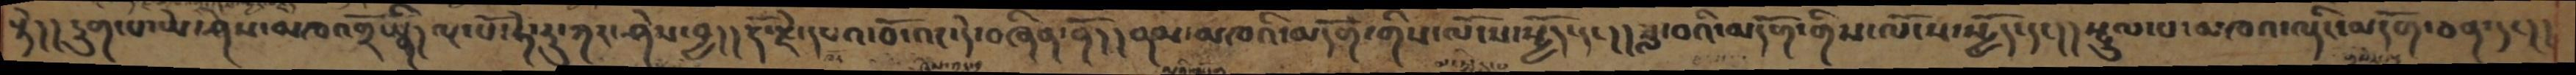སྟེ།།དྲུག་པ་ཡེ་ཤེས་མཁའགྲོ་ཡིན།ལྔ་པོ་ཧེ་རུ་ཀར་ཤེས་བྱ།།རྡོ་རྗེ་དཔའ་བོ་འང་དེ་བཞིན་ནོ།།ནམ་མཁའི་མདོག་གིས་ལོངས་སྤྱོད་དང།།ཟླ་བའི་མདོག་གིས་ལོངས་སྤྱོད་དང།།སྤྲུལ་པ་མཁའ་ལྡིང་མདོག་ཅན་དང།།
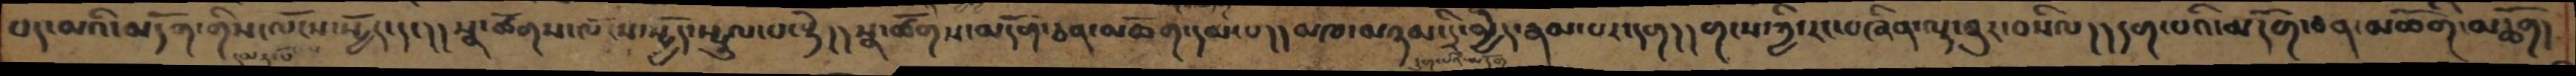པད་མའི་མདོག་གིས་ལོངས་སྤྱོད་དང།།སྣ་ཚོགས་ལོངས་སྤྱོད་སྤྲུལ་པ་སྟེ།།སྣ་ཚོགས་མདོག་ཅན་མཆོག་དམ་པ།།མཁ་མཉམ་དྲི་མྱེད་རྣམ་པར་དག།།གངས་ཀྱི་རང་བཞིན་ལྟ་བུར་བསིལ།།དག་པའི་མདོག་ཅན་མཆོགི་མཆོག།
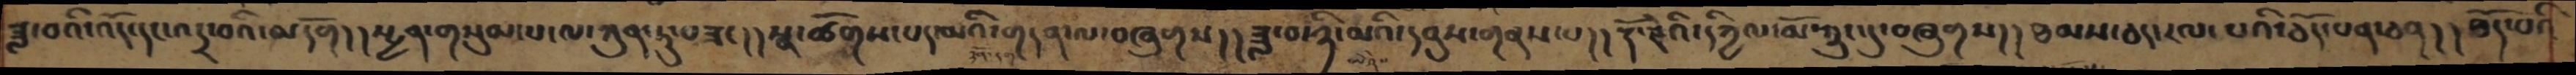ཟླ་བའི་འོད་དང་འདྲ་བའི་མདོག།།སྤྱན་གསུམ་པ་ལ་ཀུན་ཏུ་བཟང།།སྣ་ཚོགས་པད་མའི་གདན་ལ་བཞུགས།།ཟླ་བ་ཉི་མའི་དབུས་གནས་པ།།རྡོ་རྗེའི་དཀྱིལ་མོ་ཀྲུང་དུ་བཞུགས།།ཐམས་ཅད་རལ་པའི་ཅོད་པན་ཅན།།ཐོད་པའི་
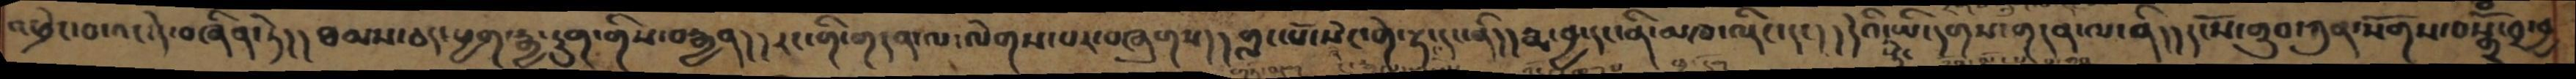འཕྲེང་བ་འང་དེ་བཞིན་ཏེ།།ཐམས་ཅད་ཕྱག་རྒྱ་དྲུག་གིས་བརྒྱན།།རང་གི་གདན་ལ་ལེགས་པར་བཞུགས།།གླང་པོ་སེང་གེ་རྟ་དང་ནི།།རྨ་བྱ་དང་ནི་མཁ་ལྡིང་དང། །དེའི་ཡི་དགས་གདན་ལ་ནི།།དངོས་གྲུབ་ཀུན་སོགས་བསྒོྃ་བར་བྱ
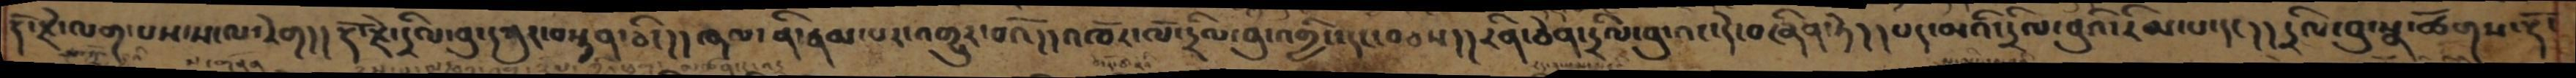རྡོ་རྗེ་ལག་པས་ས་ལ་རེག།།རྡོ་རྗེ་དྲིལ་བུ་དཀུར་བསྟན་ཅིང།།ཞལ་ནི་རྣམ་པར་འགྱུར་བའོ།།འཁོར་ལོ་དྲིལ་བུ་འགྱིང་དང་བཅས།།རིན་ཅེན་དྲིལ་བུ་འང་དྲིལ་བུ་དེ་བཞིན་ཏེ།།པད་མའི་དྲིལ་བུའི་རིམ་པ་དང།།དྲིལ་བུ་སྣ་ཚོགས་རྡོ་
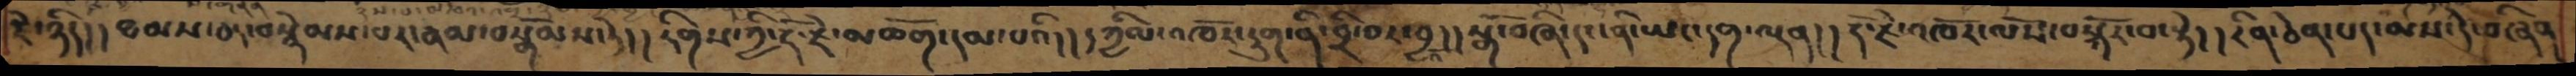རྗེ་ཉིད།།ཐམས་ཅད་བསྣེམས་པར་ནམ་བསྒོམས་ཏེ།།རིགས་ཀྱི་རྡོ་རྗེ་མཆོག་དམ་པའི།།དཀྱིལ་འཁོར་དྲུག་ནི་བྲི་བར་བྱ།།སྒོ་བཞི་དང་ནི་ཡང་དག་ལྡན།།རྡོ་རྗེ་འཁོར་ལོས་བསྐོར་བ་སྟེ།།རིན་ཅེན་པད་མས་དེ་བཞིན
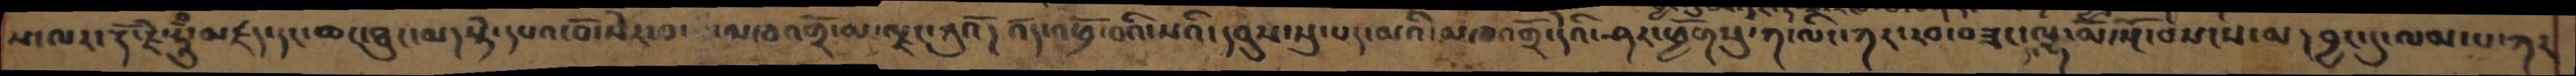ས་ལར་རྡོ་རྗེ་ཧཱུྃ་མཛད་དང་ཆང་ཐུང་མ།སྟེ་དཔའ་བོ་སེར་བ་མཁའགྲོ་མ་ལྗང་ཀུའོ།འོད་འཕྲོ་བའི་དབུས་སུ་པད་མའི་མཁའགྲོ་དེའི་ཤར་ཕྱོགསུ་ཀ་ལིང་ཀར་རབ་བཟང་དང་ལྷ་མོ་སྔོ་བསངས་མ།བྱང་དུ་ལམ་པ་ཀར
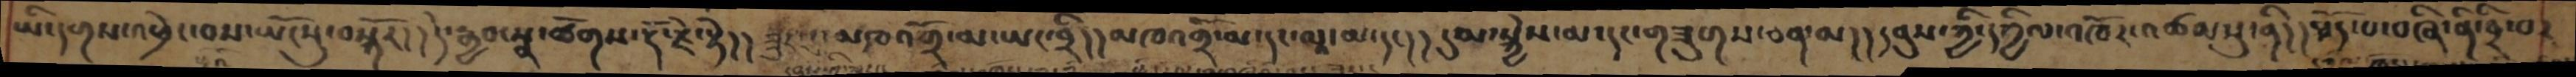ཡི་དགས་འཕྲེང་བས་ཡོངསུ་བསྐོར།།དེ་རྒྱབ་སྣ་ཚོགས་རྡོ་རྗེ་སྟེ།།ཟུར་དུ་མཁའགྲོ་མ་ཡང་བྲི།།མཁའགྲོ་མ་དང་ལཱ་མ་དང།།དུམ་སྐྱེས་མ་དང་གཟུགས་ཅན་མ།།དབུས་ཀྱི་དཀྱིལ་འཁོར་འཚམསུ་ནི།།ཐོད་པ་བཞི་ནི་བྲི་བར
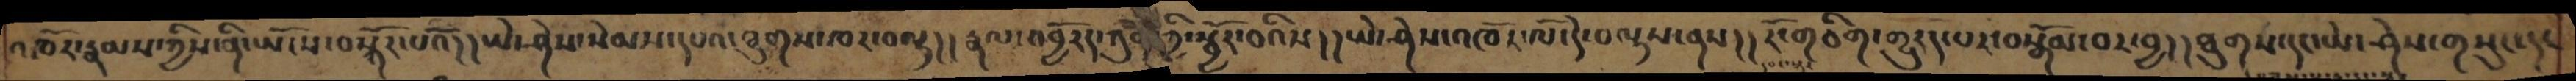འཁོར་རྣམས་ཀྱིས་ནི་ཡོངས་བསྐོར་པའོ།།ཡེ་ཤེས་སེམས་དཔའ་ཐུགས་ཁར་བལྟ།།རྣལ་འབྱོརད་ཀུན་ཀྱི་སྦྱོར་བའིས།།ཡེ་ཤེས་འཁོར་ལོ་དེ་བལྟས་ནས།།རོ་གཅིག་གྱུརད་པར་བསྒོམ་བར་བྱ།།ཐུགས་དང་ཡེ་ཤེས་གསུང་དང་
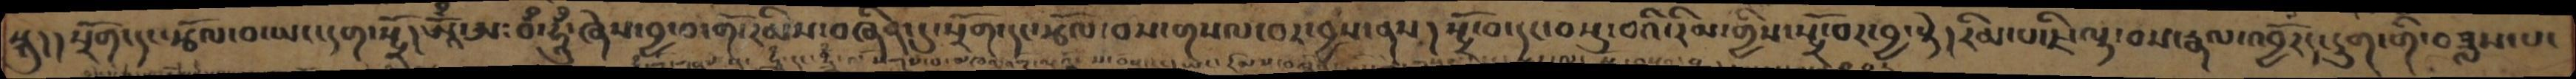སྐུ། །སྲོག་དང་རྩོལ་བ་ཡང་དག་སྤྲོ།ཨཱོྃ་ཨ་བྃ་ཧཱུྃ་ཞེས་བྱ་བ་གོ་རིམས་བཞིན་དུ་སྲོག་དང་རྩོལ་བས་གསལ་བར་བྱས་ནས།སྤྲོ་བ་དང་བསྡུ་བའི་རིམ་གྱིས་སྤྲོ་བར་བྱ་སྟེ།རིམ་པ་ཇི་ལྟ་བས་རྣལ་འབྱོརད་དྲུག་གི་བཟླས་པ་
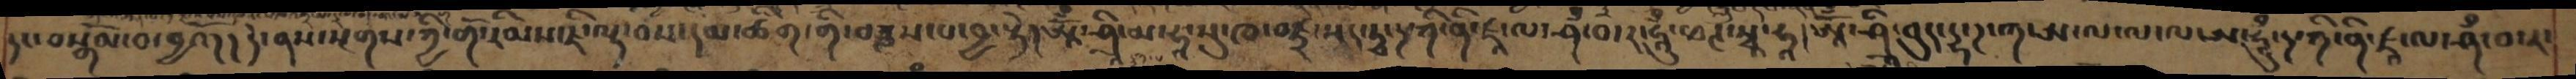དང་བསྒོམ་བ་བྱའོ། །དེ་ནས་སྔགས་ཀྱི་གོ་རིམས་ཇི་ལྟ་བས་དམ་ཚིག་གི་བཟླས་པ་བྱ་སྟེ།ཨཱོྃ་ཤྲཱི་མ་ཧཱ་སུ་ཁ་བཛྲ་སད་ཏྭ་ཀི་ནི་ཛཱ་ལ་ཤྃ་བྃ་ར་ཧཱུྃ་ཕཊ་སྭཱ་ཧཱ།ཨཱོྃ་ཤྲཱི་བུད་དྷ་ཌ་ཀ་ཨ་ལ་ལ་ལ་ཨ་ཧཱུྃ་ཌ་ཀི་ནི་ཛྭ་ལ་ཤྃ་བ་ར་
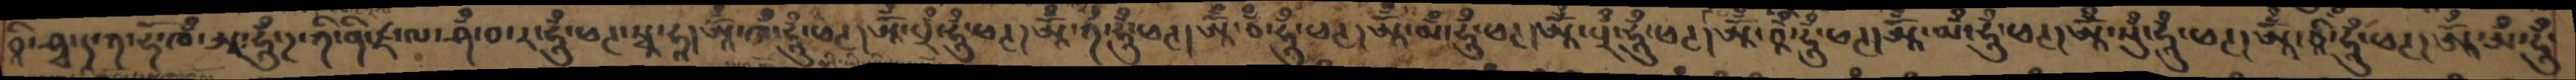བཱི་ཤྭ་དཱ་ཀ་ཧོ་ཁྃ་ཨཱ་ཧཱུྃ་ཌ་ཀི་ནི་ཛ་ལ་ཤྃ་བ་ར་ཧཱུྃ་ཕཊ་སྭཱ་ཧཱ།ཨཱོྃ་ཁྃ་ཧཱུྃ་ཕཊ། ཨཱོྃ་པྲྃ་ཧཱུྃ་ཕཊ།ཨཱོྃ་ཀྃ་ཧཱུྃ་ཕཊ།ཨཱོྃ་བྃ་ཧཱུྃ་ཕཊ།ཨཱོྃ་མྃ་ཧཱུྃ་ཕཊ།ཨཱོྃ་པྲྃ་ཧཱུྃ་ཕཊ།ཨཱོྃ་བཱྃ་ཧཱུྃ་ཕཊ།ཨཱོྃ་མྃ་ཧཱུྃ་ཕཊ།ཨཱོྃ་སུྃ་ཧཱུྃ་ཕཊ།ཨཱོྃ་བཱི་ཧཱུྃ་ཕཊ།ཨཱོྃ་ཨྃ་ཧཱུྃ་
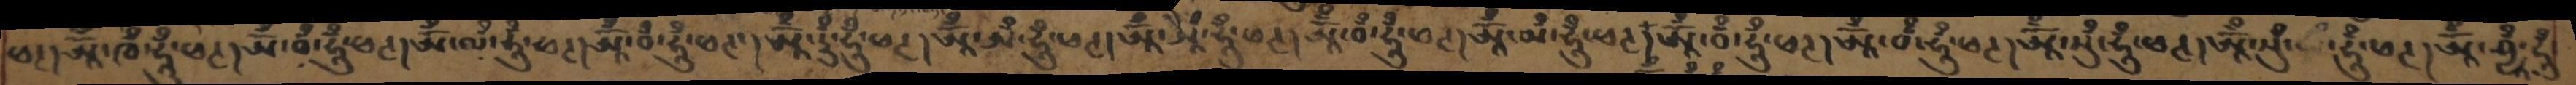ཕཊ།ཨཱོྃ་ཁྃ་ཧཱུྃ་ཕཊ།ཨཱོྃ་བྃ་ཧཱུྃ་ཕཊ།ཨོྃ་ལྃ་ཧཱུྃ་ཕཊ།ཨཱོྃ་བྃ་ཧཱུྃ་ཕཊ།ཨཱོྃ་རུྃ་ཧཱུྃ་ཕཊ།ཨཱོྃ་ཨྃ་ཧཱུྃ་ཕཊ།ཨཱོྃ་ཨཱཻྃ་ཧཱུྃ་ཕཊ།ཨཱོྃ་བྃ་ཧཱུྃ་ཕཊ།ཨཱོྃ་མྃ་ཧཱུྃ་ཕཊ།ཨཱོྃ་བྃ་ཧཱུྃ་ཕཊ།ཨཱོྃ་བྃ་ཧཱུྃ་ཕཊ།ཨཱོྃ་སུྃ་ཧཱུྃ་ཕཊ།ཨཱོྃ་སུྃ་ ཧཱུྃ་ཕཊ།ཨཱོྃ་ཤྱཱྃ་ཧཱུྃ་
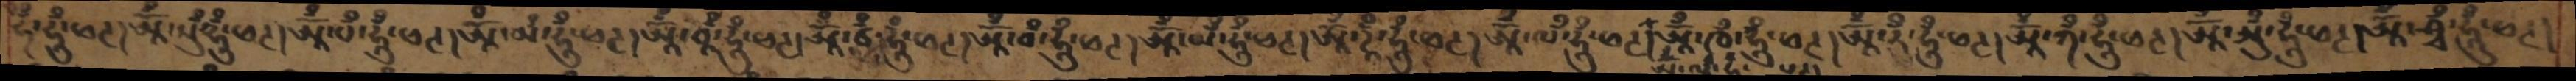ཧྃ་ཧཱུྃ་ཕཊ།ཨཱོྃ་སུྃ་ཧཱུྃ་ཕཊ།ཨཱོྃ་པྃ་ཧཱུྃ་ཕཊ།ཨཱོྃ་མྃ་ཧཱུྃ་ཕཊ།ཨཱོྃ་བཱྃ་ཧཱུྃ་ཕཊ།ཨཱོྃ་ཙྃ་ཧཱུྃ་ཕཊ།ཨཱོྃ་བྃ་ཧཱུྃ་ཕཊ།ཨཱོྃ་ཡྃ་ཧཱུྃ་ཕཊ།ཨཱོྃ་ཌྃ་ཧཱུྃ་ཕཊ།ཨཱོྃ་ལྃ་ཧཱུྃ་ཕཊ།ཨཱོྃ་ཁྃ་ཧཱུྃ་ཕཊ།ཨཱོྃ་རྃ་ཧཱུྃ་ཕཊ།ཨཱོྃ་ཀྃ་ཧཱུྃ་ཕཊ།ཨཱོྃ་ཨུྃ་ཧཱུྃ་ཕཊ།ཨཱོྃ་ཤྭྃ་ཧཱུྃ་ཕཊ།
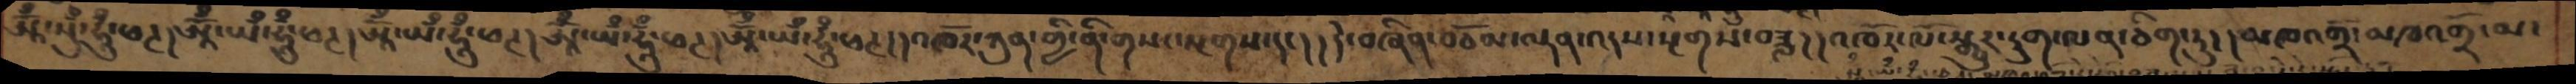ཨཱོྃ་སུྃ་ཧཱུྃ་ཕཊ།ཨཱོྃ་ཡྃ་ཧཱུྃ་ཕཊ།ཨཱོྃ་ཡྃ་ཧཱུྃ་ཕཊ།ཨཱོྃ་ཡྃ་ཧཱུྃ་ཕཊ།ཨཱོྃ་ཡྃ་ཧཱུྃ་ཕཊ།འཁོར་ཀུན་གྱི་ནི་གསང་སྔགས་དང།།དེ་བཞིན་བཅོམ་ལྡན་འདས་སྔགས་བཟླ།།འཁོར་ལོ་སྒྱུར་དྲུག་ལན་ཅིག་ཏུ།།མཁའགྲོ་མཁའགྲོ་མ་
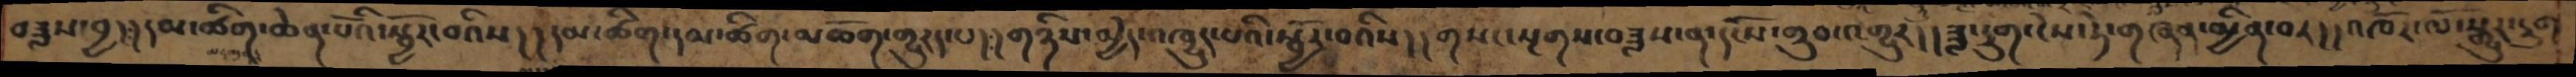བཟླས་བྱ།།དམ་ཚིག་ཆེན་པོའི་སྦྱོར་བའིས།།དམ་ཚིག་དམ་ཚིག་མཆོག་གྱུརད་པ།།གཉིས་མྱེད་འཁྱུད་པའི་སྦྱོར་བའིས།།གསང་སྔགས་བཟླས་ན་དངོས་གྲུབ་འགྱུར།།།ཟླ་དྲུག་ངེས་ཏེ་གཞན་མྱིན་བར།།འཁོར་ལོ་སྒྱུར་དྲུག
